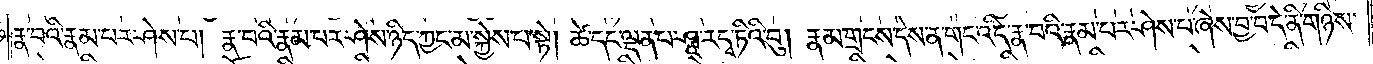རྣ་བའི་རྣམ་པར་ཤེས་པ། རྣ་བའི་རྣམ་པར་ཤེས་པ་ཉིད་ཀྱང་མ་སྐྱེས་པ་སྟེ། ཚེ་དང་ལྡན་པ་ཤཱ་ར་དྭ་ཏིའི་བུ། རྣམ་གྲངས་དེས་ན་གང་འདི་རྣ་བའི་རྣམ་པར་ཤེས་པ་ཞེས་བྱ་བ་དེ་ནི་གཉིས་
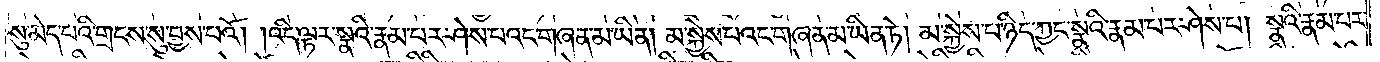སུ་མེད་པའི་གྲངས་སུ་བྱས་པའོ། །འདི་ལྟར་སྣའི་རྣམ་པར་ཤེས་པའང་གཞན་མ་ཡིན། མ་སྐྱེས་པའང་གཞན་མ་ཡིན་ཏེ། མ་སྐྱེས་པ་ཉིད་ཀྱང་སྣའི་རྣམ་པར་ཤེས་པ། སྣའི་རྣམ་པར་
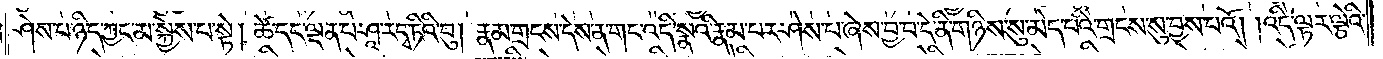ཤེས་པ་ཉིད་ཀྱང་མ་སྐྱེས་པ་སྟེ། ཚེ་དང་ལྡན་པ་ཤཱ་ར་དྭ་ཏིའི་བུ། རྣམ་གྲངས་དེས་ན་གང་འདི་སྣའི་རྣམ་པར་ཤེས་པ་ཞེས་བྱ་བ་དེ་ནི་གཉིས་སུ་མེད་པའི་གྲངས་སུ་བྱས་པའོ། །འདི་ལྟར་ལྕེའི་
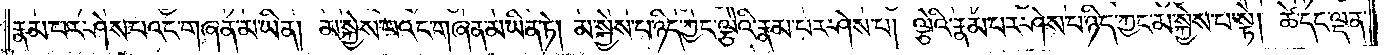རྣམ་པར་ཤེས་པའང་གཞན་མ་ཡིན། མ་སྐྱེས་པའང་གཞན་མ་ཡིན་ཏེ། མ་སྐྱེས་པ་ཉིད་ཀྱང་ལྕེའི་རྣམ་པར་ཤེས་པ། ལྕེའི་རྣམ་པར་ཤེས་པ་ཉིད་ཀྱང་མ་སྐྱེས་པ་སྟེ། ཚེ་དང་ལྡན་
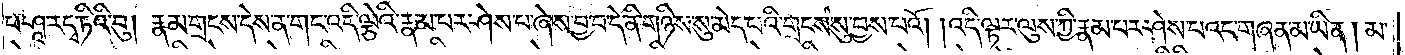པ་ཤཱ་ར་དྭ་ཏིའི་བུ། རྣམ་གྲངས་དེས་ན་གང་འདི་ལྕེའི་རྣམ་པར་ཤེས་པ་ཞེས་བྱ་བ་དེ་ནི་གཉིས་སུ་མེད་པའི་གྲངས་སུ་བྱས་པའོ། །འདི་ལྟར་ལུས་ཀྱི་རྣམ་པར་ཤེས་པའང་གཞན་མ་ཡིན། མ་
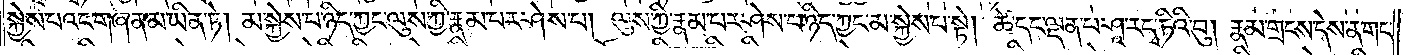སྐྱེས་པའང་གཞན་མ་ཡིན་ཏེ། མ་སྐྱེས་པ་ཉིད་ཀྱང་ལུས་ཀྱི་རྣམ་པར་ཤེས་པ། ལུས་ཀྱི་རྣམ་པར་ཤེས་པ་ཉིད་ཀྱང་མ་སྐྱེས་པ་སྟེ། ཚེ་དང་ལྡན་པ་ཤཱ་ར་དྭ་ཏིའི་བུ། རྣམ་གྲངས་དེས་ན་གང་
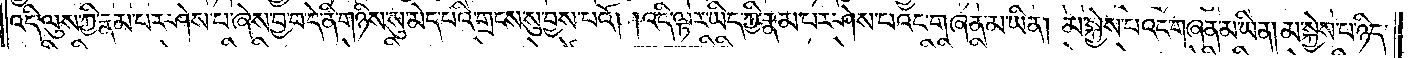འདི་ལུས་ཀྱི་རྣམ་པར་ཤེས་པ་ཞེས་བྱ་བ་དེ་ནི་གཉིས་སུ་མེད་པའི་གྲངས་སུ་བྱས་པའོ། །འདི་ལྟར་ཡིད་ཀྱི་རྣམ་པར་ཤེས་པའང་གཞན་མ་ཡིན། མ་སྐྱེས་པའང་གཞན་མ་ཡིན་ཏེ། མ་སྐྱེས་པ་ཉིད་
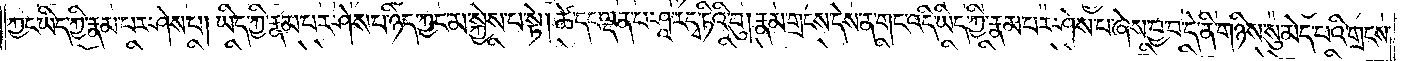ཀྱང་ཡིད་ཀྱི་རྣམ་པར་ཤེས་པ། ཡིད་ཀྱི་རྣམ་པར་ཤེས་པ་ཉིད་ཀྱང་མ་སྐྱེས་པ་སྟེ། ཚེ་དང་ལྡན་པ་ཤཱ་ར་དྭ་ཏིའི་བུ། རྣམ་གྲངས་དེས་ན་གང་འདི་ཡིད་ཀྱི་རྣམ་པར་ཤེས་པ་ཞེས་བྱ་བ་དེ་ནི་གཉིས་སུ་མེད་པའི་གྲངས་
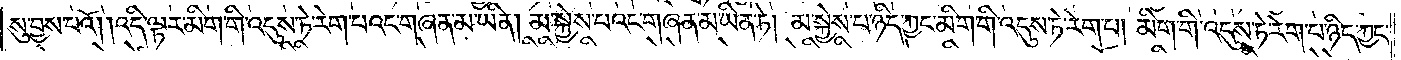སུ་བྱས་པའོ། །འདི་ལྟར་མིག་གི་འདུས་ཏེ་རེག་པའང་གཞན་མ་ཡིན། མ་སྐྱེས་པའང་གཞན་མ་ཡིན་ཏེ། མ་སྐྱེས་པ་ཉིད་ཀྱང་མིག་གི་འདུས་ཏེ་རེག་པ་མིག་གི་འདུས་ཏེ་རེག་པ་ཉིད་ཀྱང་
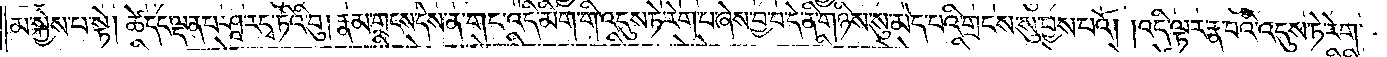མ་སྐྱེས་པ་སྟེ། ཚེ་དང་ལྡན་པ་ཤཱ་ར་དྭ་ཏིའི་བུ་རྣམ་གྲངས་དེས་ན། གང་འདི་མིག་གི་འདུས་ཏེ་རེག་པ་ཞེས་བྱ་བ་དེ་ནི་གཉིས་སུ་མེད་པའི་གྲངས་སུ་བྱས་པའོ། །འདི་ལྟར་རྣ་བའི་འདུས་ཏེ་རེག་
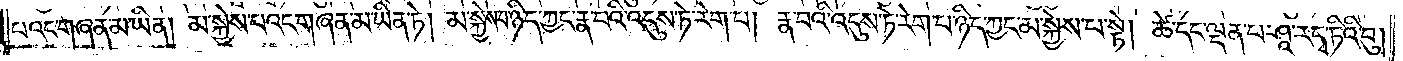པའང་གཞན་མ་ཡིན། མ་སྐྱེས་པའང་གཞན་མ་ཡིན་ཏེ། མ་སྐྱེས་པ་ཉིད་ཀྱང་རྣ་བའི་འདུས་ཏེ་རེག་པ། རྣ་བའི་འདུས་ཏེ་རེག་པ་ཉིད་ཀྱང་མ་སྐྱེས་པ་སྟེ། ཚེ་དང་ལྡན་པ་ཤཱ་ར་དྭ་ཏིའི་བུ་
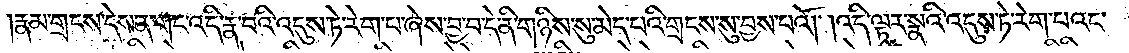རྣམ་གྲངས་དེས་ན་གང་འདི་རྣ་བའི་འདུས་ཏེ་རེག་པ་ཞེས་བྱ་བ་དེ་ནི་གཉིས་སུ་མེད་པའི་གྲངས་སུ་བྱས་པའོ། །འདི་ལྟར་སྣའི་འདུས་ཏེ་རེག་པའང་
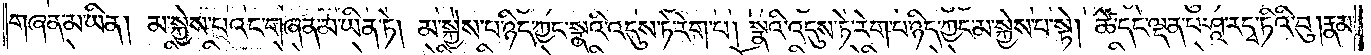གཞན་མ་ཡིན། མ་སྐྱེས་པའང་གཞན་མ་ཡིན་ཏེ། མ་སྐྱེས་པ་ཉིད་ཀྱང་སྣའི་འདུས་ཏེ་རེག་པ། སྣའི་འདུས་ཏེ་རེག་པ་ཉིད་ཀྱང་མ་སྐྱེས་པ་སྟེ། ཚེ་དང་ལྡན་པ་ཤཱ་ར་དྭ་ཏིའི་བུ། རྣམ་
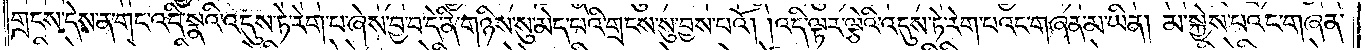གྲངས་དེས་ན་གང་འདི་སྣའི་འདུས་ཏེ་རེག་པ་ཞེས་བྱ་བ་དེ་ནི་གཉིས་སུ་མེད་པའི་གྲངས་སུ་བྱས་པའོ། །འདི་ལྟར་ལྕེའི་འདུས་ཏེ་རེག་པའང་གཞན་མ་ཡིན། མ་སྐྱེས་པའང་གཞན་
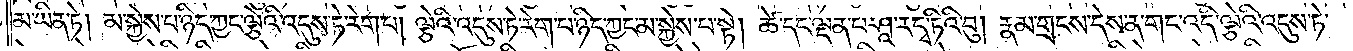མ་ཡིན་ཏེ། མ་སྐྱེས་པ་ཉིད་ཀྱང་ལྕེའི་འདུས་ཏེ་རེག་པ། ལྕེའི་འདུས་ཏེ་རེག་པ་ཉིད་ཀྱང་མ་སྐྱེས་པ་སྟེ། ཚེ་དང་ལྡན་པ་ཤཱ་ར་དྭ་ཏིའི་བུ། རྣམ་གྲངས་དེས་ན་གང་འདི་ལྕེའི་འདུས་ཏེ་
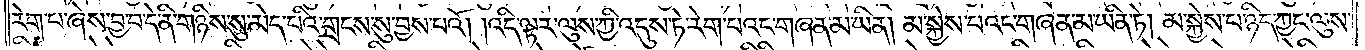རེག་པ་ཞེས་བྱ་བ་དེ་ནི་གཉིས་སུ་མེད་པའི་གྲངས་སུ་བྱས་པའོ། །འདི་ལྟར་ལུས་ཀྱི་འདུས་ཏེ་རེག་པའང་གཞན་མ་ཡིན། མ་སྐྱེས་པའང་གཞན་མ་ཡིན་ཏེ། མ་སྐྱེས་པ་ཉིད་ཀྱང་ལུས་
